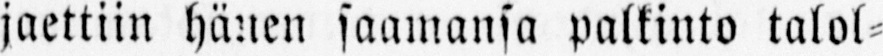jaettiin hänen saamansa palkinto talol-
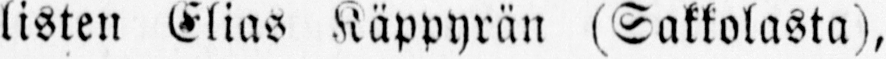listen Elias Käppyrän (Sakkolasta),
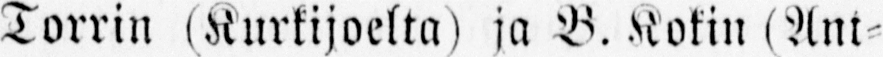Torrin (Kurkijoelta) ja B. Kokin (Ant-
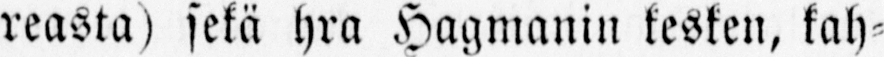reasta) sekä hra Hagmanin kesken, kah-
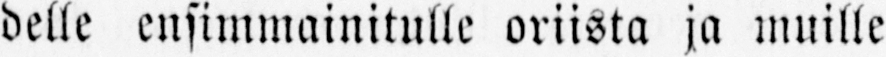delle ensimmainitulle oriista ja muille
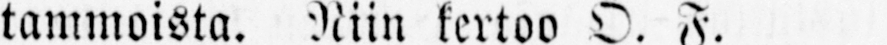tammoista. Niin kertoo Ö. F.
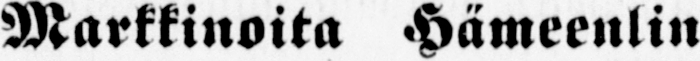— Markkinoita Hämeenlin-
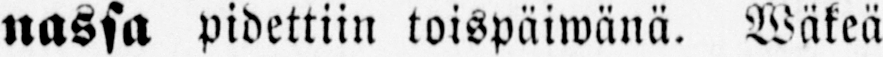nassa pidettiin toispäiwänä. Wäkeä
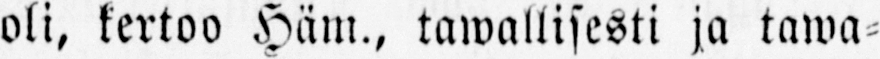oli, kertoo Häm., tawallisesti ja tawa-
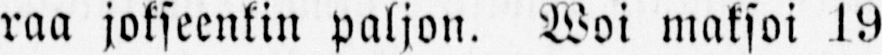raa jokseenkin paljon. Woi maksoi 19
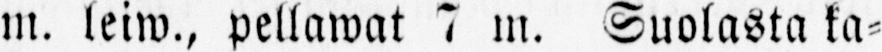m. leiw., pellawat 7 m. Suolasta ka-
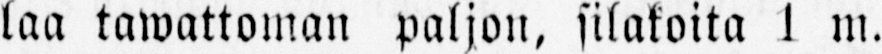laa tawattoman paljon, silakoita 1 m.
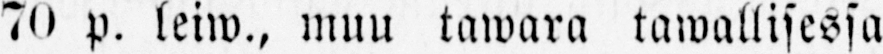70 p. leiw., muu tawara tawallisessa
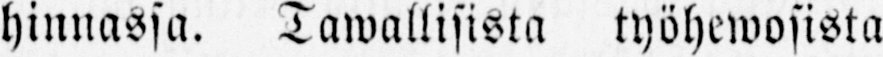hinnassa. Tawallisista työhewosista
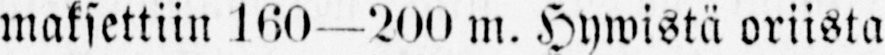maksettiin 160—200 m. Hywistä oriista
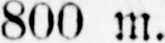800 m.
